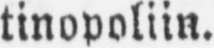tinopoliin.
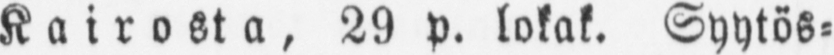Kairosta, 29 P. lokak. Syytös-
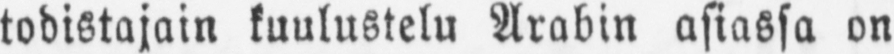todistajain kuulustelu Arabin asiassa on
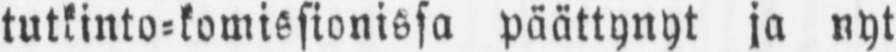tutkinto-komissionissa päättynyt ja nyt
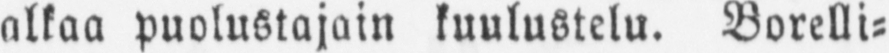alkaa puolustajain kuulustelu. Borelli-
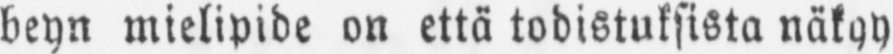beyn mielipide on että todistuksista näkyy
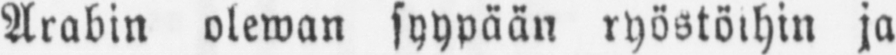Arabin olewan syypään ryöstöihin ja
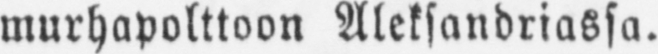murhapolttoon Aleksandriassa.
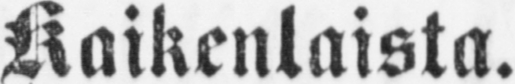Kaikenlaista.
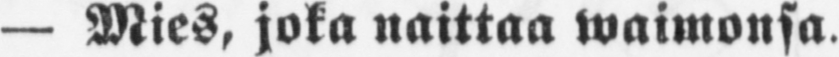— Mies, joka naittaa waimonsa.
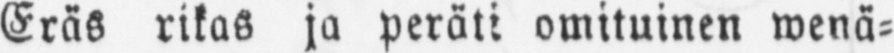Eräs rikas ja peräti omituinen wenä-
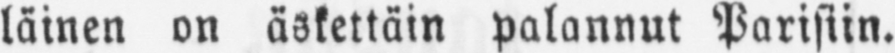läinen on äskettäin palannut Parisiin.
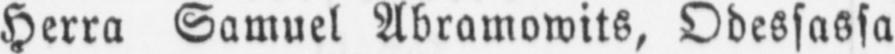Herra Samuel Abramowits, Odessassa
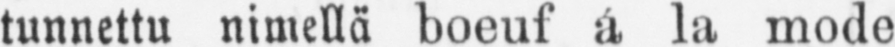tunnettu nimellä boeuf á la mode
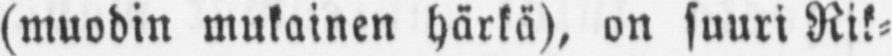(muodin mukainen härkä), on suuri Rik-
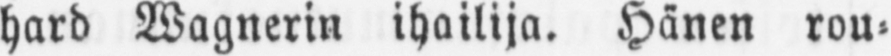hard Wagnerin ihailija. Hänen rou-
